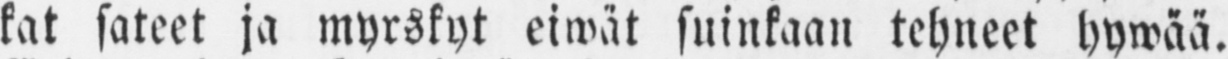kat sateet ja myrskyt eiwät suinkaan tehneet hywää.
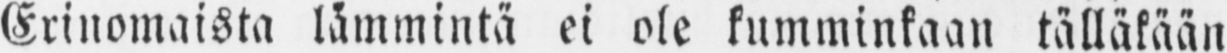Erinomaista lämmintä ei ole kumminkaan tälläkään
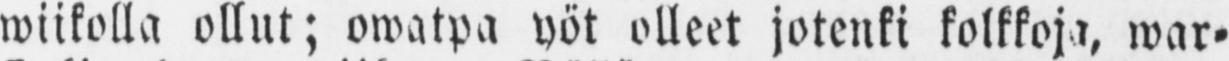wiikolla ollut; owatpa yöt olleet jotenki kolkkoja, war-
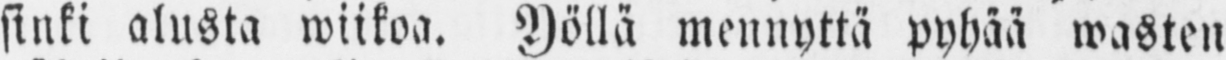sinki alusta wiikoa. Yöllä mennyttä pyhää wasten
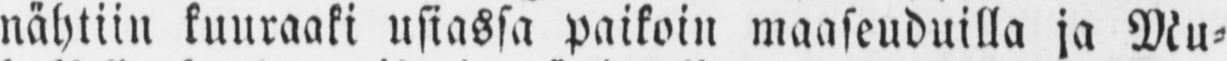nähtiin kuuraaki usiassa paikoin maaseuduilla ja Mu-
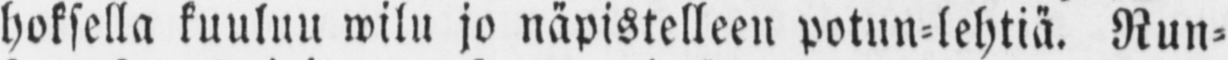hoksella kuuluu wilu jo näpistelleen potun-lehtiä. Run-
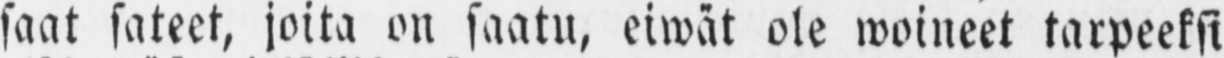saat sateet, joita on saatu, eiwät ole woineet tarpeeksi
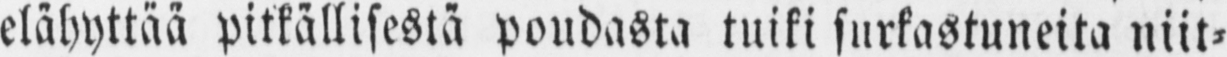elähyttää pitkällisestä poudasta tuiki surkastuneita niit-
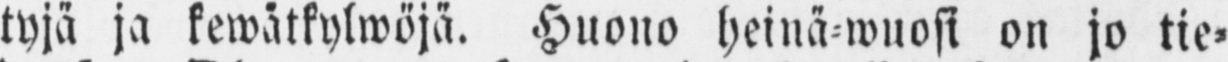tyjä ja kewätkylwöjä. Huono heinä wuosi on jo tie-
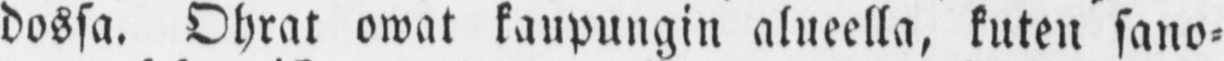dossa. Ohrat owat kaupungin alueella, kuten sano-
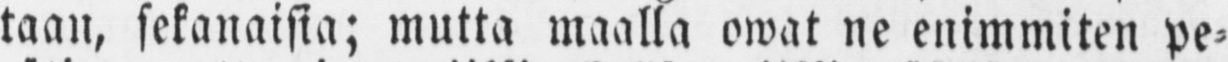taan, sekanaisia; mutta maalla owat ne enimmiten pe-
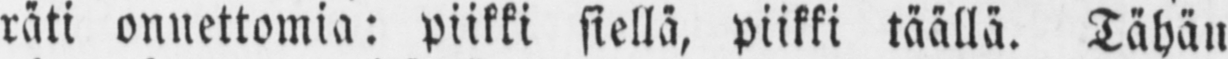räti onnettomia: piikki siellä, piikki täällä. Tähän
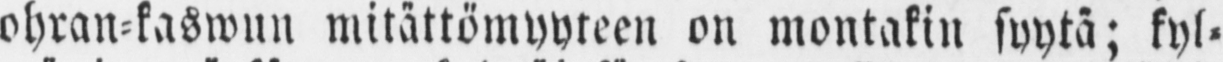ohran-kaswun mitättömyyteen on montakin syytä; kyl-
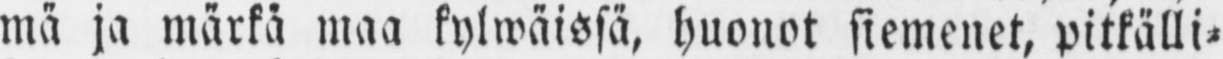mä ja märkä maa kylwäissä, huonot siemenet, pitkälli-
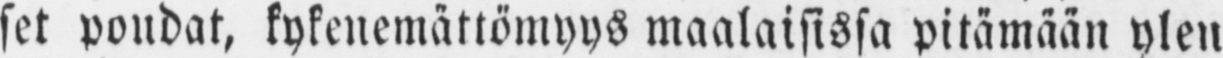set poudat, kykenemättömyys maalaisissa pitämään ylen
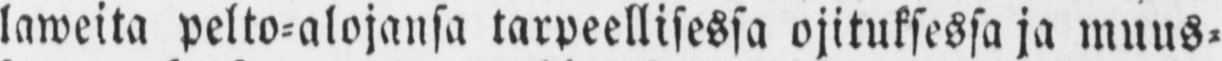laweita pelto-alojansa tarpeellisessa ojituksessa ja muus-
